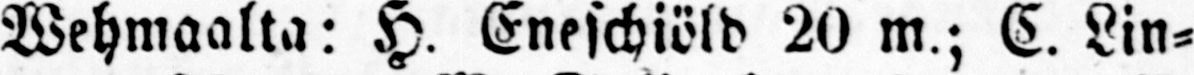Wehmaalta: H. Eneschiöld 20 m.; C. Lin-
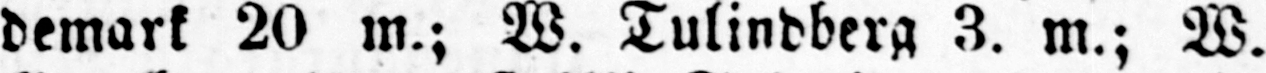demark 20 m.; W. Tulindberg 3. m.; W.
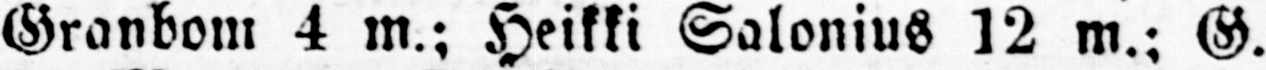Granbom 4 m.; Heikki Salonius 12 m.; G.
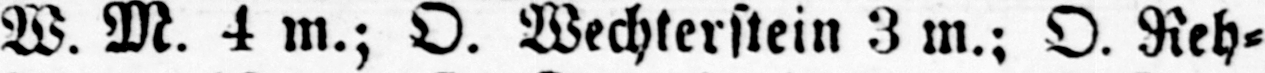W. M. 4 m.; O. Mechterstein 3 m.; O. Reh-
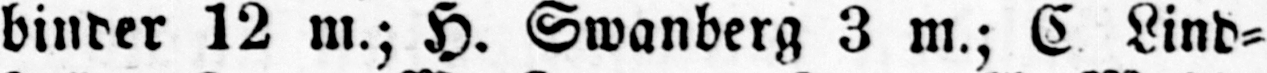binder 12 m.; H. Swanberg 3 m.; C Lind-
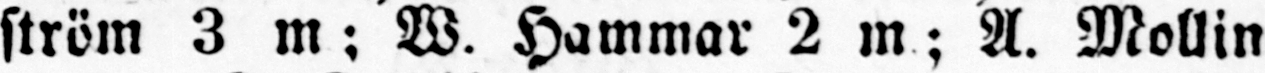ström 3 m; W. Hammar 2 m; A. Mollin
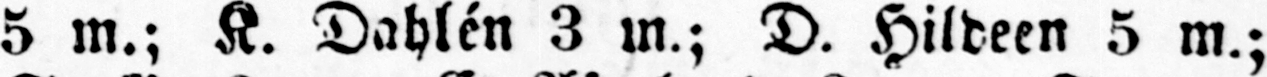5 m.; K. Dahlé n 3 m.; D. Hildeen 5 m.;
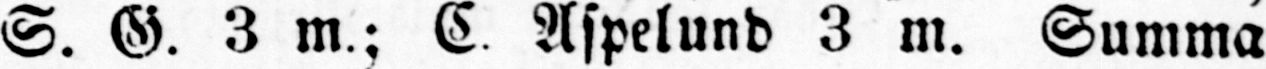S. G. 3 m.; C. Aspelund 3 m. Summa
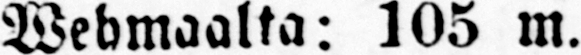Webmaalta: 105 m.
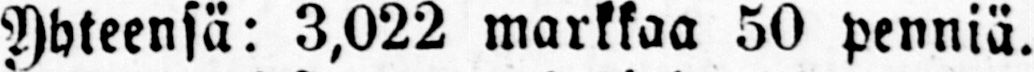Yhteensä: 3,022 markkaa 50 penniä.
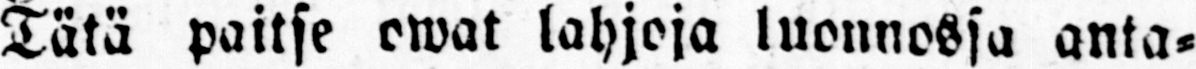Tätä paitse owat lahjoja luonnossa anta-
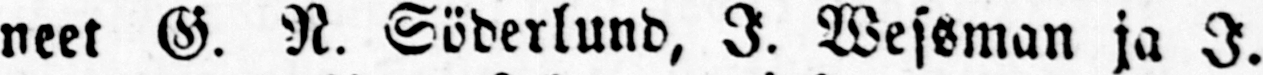neet G. N. Söderlund, I. Wessman ja I.
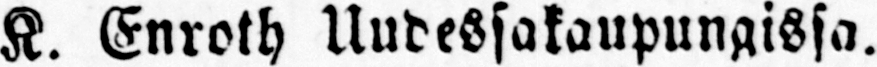K. Enroth Uudessakaupungissa.
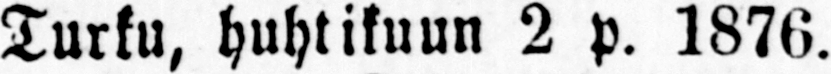Turku, huhtikuun 2 p. 1876.
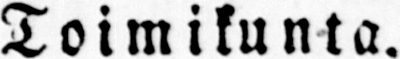Toimikunta.
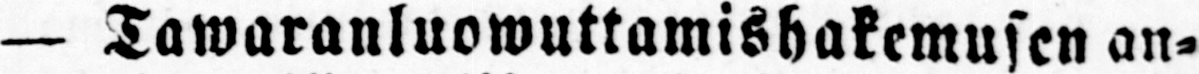— Tawaranluowuttamishakemusen an-
